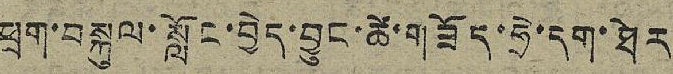ཕྲག་བསྐུལ་སློང་བྱེད་བྱུང་ཚེ་གཟོད་ཧྲེ་དག་ཐེར
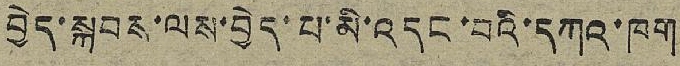བྱེད་སྐབས་ལས་བྱེད་པ་མི་འདང་བའི་དཀའ་ཁག
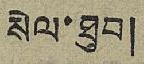སེལ་ཐུབ།
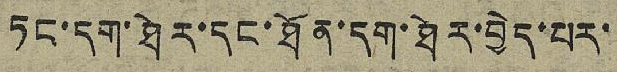ཏང་དག་ཐེར་དང་ཐོན་དག་ཐེར་བྱེད་པར་
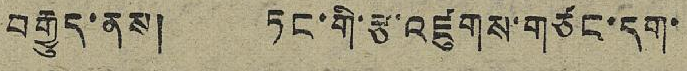བརྒྱུད་ནས། ཏང་གི་རྩ་འཛུགས་གཙང་དག་
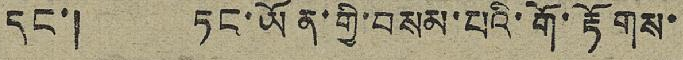དང་། ཏང་ཡོན་གྱི་བསམ་པའི་གོ་རྟོགས་
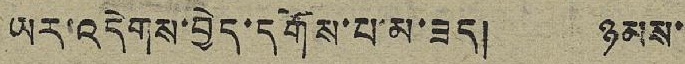ཡར་འདེགས་བྱེད་དགོས་པ་མ་ཟད། ཉམས་
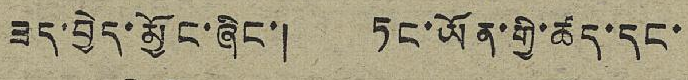ཟད་བྱེད་མྱོང་ཞིང་། ཏང་ཡོན་གྱི་ཚད་དང་
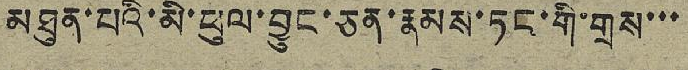མཐུན་པའི་མི་ཕུལ་བྱུང་ཅན་རྣམས་ཏང་གི་གྲས་་་
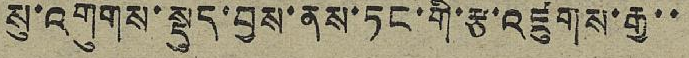སུ་འགུགས་སྡུད་བྱས་ནས་ཏང་གི་རྩ་འཛུགས་རྒྱ་་
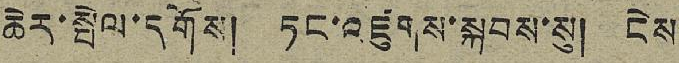ཆེར་སྤེལ་དགོས། ཏང་འཛུགས་སྐབས་སུ། ངེས
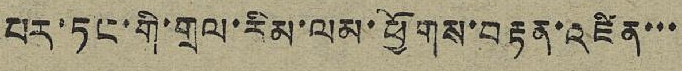པར་ཏང་གི་གྲལ་རིམ་ལམ་ཕྱོགས་བརྟན་འཛིན་་་
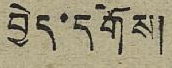བྱེད་དགོས།
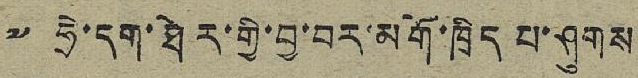༧ ཧྲེ་དག་ཐེར་གྱི་བྱ་བར་མགོ་ཁྲིད་པ་ཤུགས
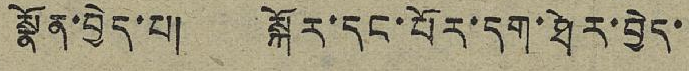སྣོན་བྱེད་པ། སྐོར་དང་པོར་དག་ཐེར་བྱེད་
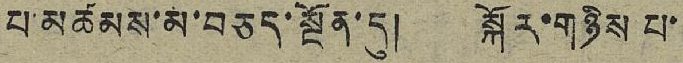པ་མཚམས་མ་བཅད་སྔོན་དུ། སྐོར་གཉིས་པ་
